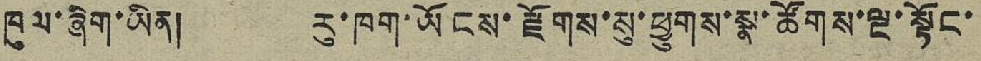ཁུལ་ཞིག་ཡིན། རུ་ཁག་ཡོངས་རྫོགས་སུ་ཕྱུགས་སྣ་ཚོགས་ལྔ་སྟོང་
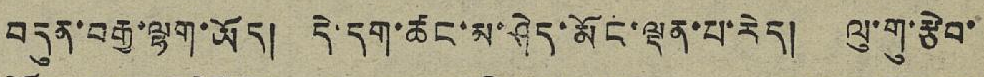བདུན་བརྒྱ་ལྷག་ཡོད། དེ་དག་ཚང་མ་ཤེད་མོང་ལྡན་པ་རེད། ལུ་གུ་རྩེབ་
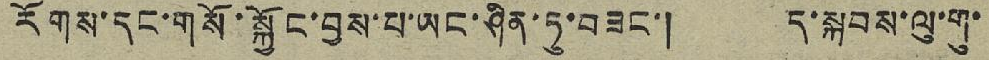རོགས་དང་གསོ་སྐྱོང་བྱས་པ་ཡང་ཤིན་ཏུ་བཟང་། ད་སྐབས་ལུ་གུ་
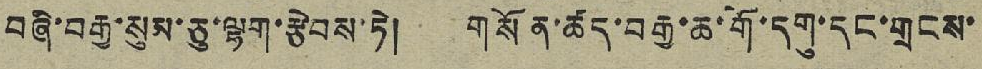བཞི་བརྒྱ་སུམ་ཅུ་ལྷག་རྩེབས་ཏེ། གསོན་ཚད་བརྒྱ་ཆ་གོ་དགུ་དང་གྲངས་
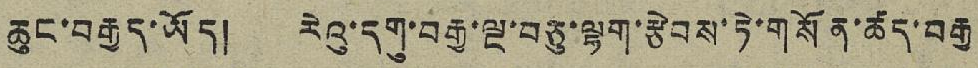ཆུང་བརྒྱད་ཡོད། རེའུ་དགུ་བརྒྱ་ལྔ་བཅུ་ལྷག་རྩེབས་ཏེ་གསོན་ཚད་བརྒྱ
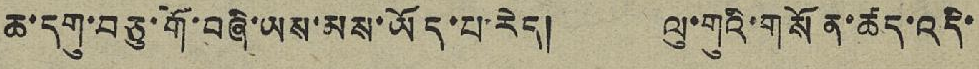ཆ་དགུ་བཅུ་གོ་བཞི་ཡས་མས་ཡོད་པ་རེད། ལུ་གུའི་གསོན་ཚད་འདི་
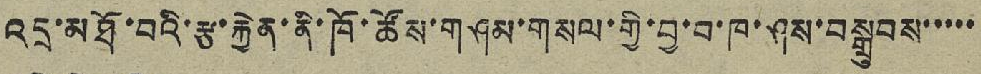འདྲ་མཐོ་བའི་རྩ་རྐྱེན་ནི་ཁོ་ཚོས་གཤམ་གསལ་གྱི་བྱ་བ་ཁ་ཤས་བསྒྲུབས་་་་་
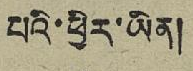པའི་ཕྱིར་ཡིན།
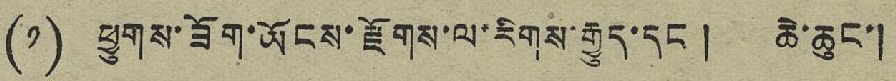(༡) ཕྱུགས་ཟོག་ཡོངས་རྫོགས་ལ་རིགས་རྒྱུད་དང་། ཆེ་ཆུང་།
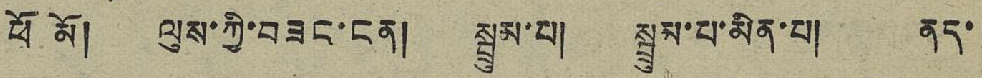ཕོ མོ། ལུས་ཀྱི་བཟང་ངན། སྦྲུམ་པ། སྦྲུམ་པ་མིན་པ། ནད་
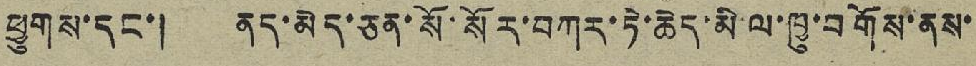ཕྱུགས་དང་། ནད་མེད་ཅན་སོ་སོར་བཀར་ཏེ་ཆེད་མི་ལ་ཁྱུ་བགོས་ནས་
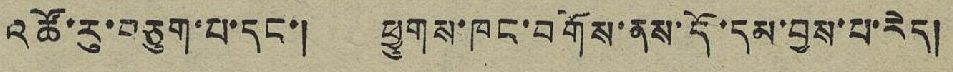འཚོ་རུ་བཅུག་པ་དང་། ཕྱུགས་ཁང་བགོས་ནས་དོ་དམ་བྱས་པ་རེད།
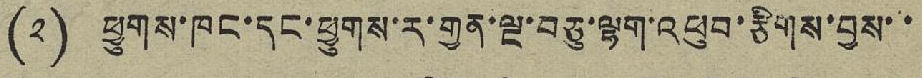(༢) ཕྱུགས་ཁང་དང་ཕྱུགས་ར་གྱན་ལྔ་བཅུ་ལྷག་འཕུབ་རྩིགས་བྱས་་
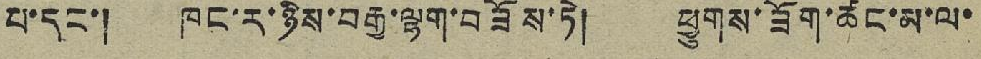པ་དང་། ཁང་ར་ཉིས་བརྒྱ་ལྷག་བཟོས་ཏེ། ཕྱུགས་ཟོག་ཚང་མ་ལ་
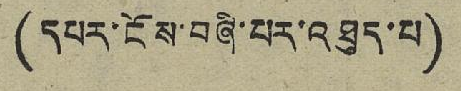(དཔར་ངོས་བཞི་པར་འཐུད་པ)
